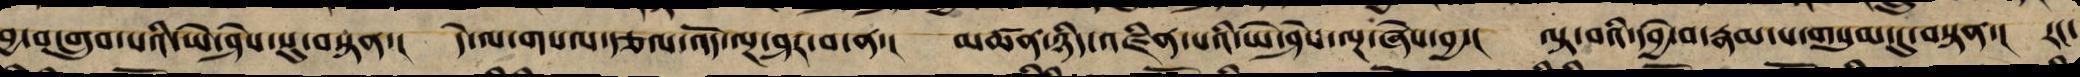བྱ་བ་གྲུབ་པའི་ཡེ་ཤེས་སུ་བསྟན་། དེ་ལ་གསལ་རྩལ་འོད་ལྔ་ཤར་བ་ན་། མཚན་ཉིད་འཛིན་པའི་ཡེ་ཤེས་ལྔ་ཞེས་བྱ་། ལྟ་བའི་དབྱེ་བ་རྣམ་པ་གསུམ་དུ་བསྟན་། རང་
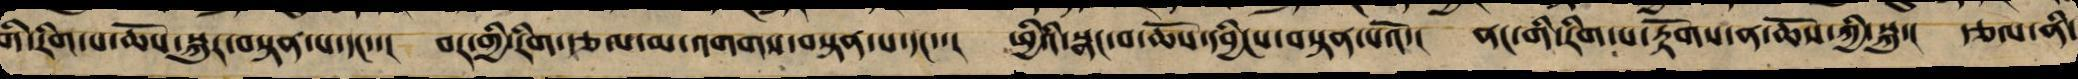གི་རིག་པ་ཆོས་སྐུར་བསྟན་པ་དང་་། བར་གྱི་རིག་རྩལ་མ་འགགས་བསྟན་པ་དང་་། ཕྱིའི་སྣང་བ་ཆོས་དབྱིངས་བསྟན་པའོ་། ནང་གི་རིག་པ་རྟོགས་ན་ཆོས་ཀྱི་སྐུ་། རྩལ་ནི་
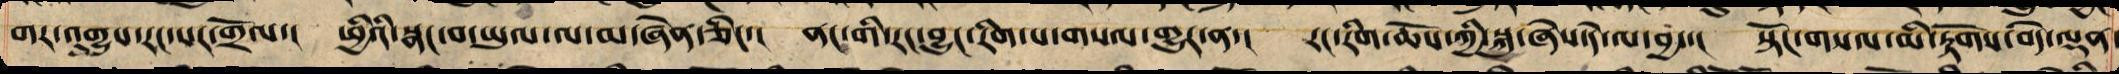གར་འགྱུས་རང་སར་གྲོལ་། ཕྱིའི་སྣང་བ་ཡུལ་ལ་མ་ཞེན་ཅིང་། ནང་གི་རང་བྱུང་རིག་པ་གསལ་གྱུར་ན་། རང་རིག་ཆོས་ཀྱི་སྐུ་ཞེས་དེ་ལ་བྱ་་། སྟོང་གསལ་མི་རྟོགས་བདེ་ལྡན་
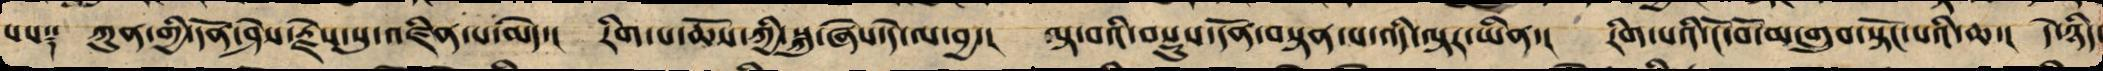པས༑ ཀུན་གྱི་དོན་ཤེས་རྗེས་སུ་འཛིན་པ་མེད་། རིག་པ་ཆོས་ཀྱི་སྐུ་ཞེས་དེ་ལ་བྱ་། ལྟ་བའི་བསྡུས་དོན་བསྟན་པ་འདི་ལྟར་ཡིན་། རིག་པའི་ངོ་བོ་མ་གྲུབ་སྟོང་པའི་ཆ་། དེ་ཉིད་
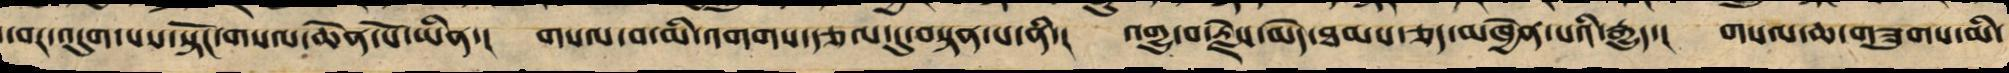་བར་འདུག་པས་སྟོང་གསལ་ཆེན་པོ་ཡིན་། གསལ་བ་མི་འགགས་རྩལ་དུ་བསྟན་པ་ནི་། འགྱུ་བ་རྗེས་མེད་ཐམས་ཅད་མཁྱེན་པའི་རྒྱུད་། གསལ་ཆ་གཟུགས་མི་
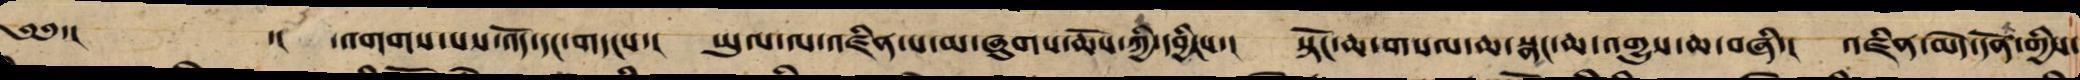༄༅་། ་། འགགས་པས་འོད་དང་གདངས་། ཡུལ་ལ་འཛིན་པ་མ་ཞུགས་ཆོས་ཀྱི་དབྱིངས་། སྟོང་ཆ་གསལ་ཆ་སྣང་ཆ་འགྱུས་ཆ་བཞི་། འཛིན་མེད་དོན་གྱིས་
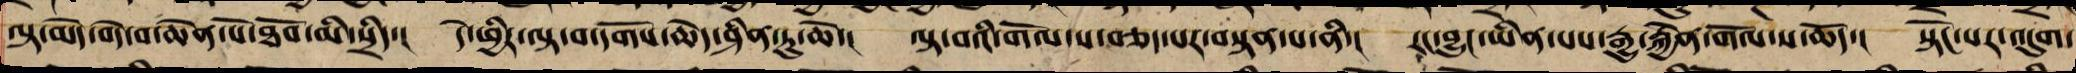ལྟ་མེད་བདེ་བ་ཆེན་པོ་ཐོབ་མི་སྲིད་། དེ་ཕྱིར་ལྟ་བ་དགོས་ཆེད་ཤིན་ཏུ་ཆེ་། ལྟ་བའི་གོལ་ས་བཅད་པར་བསྟན་པ་ནི་། རང་བྱུང་ཡིན་པས་རྒྱུ་རྐྱེན་གོལ་ས་ཆོད་། སྟོང་པར་འདུག་
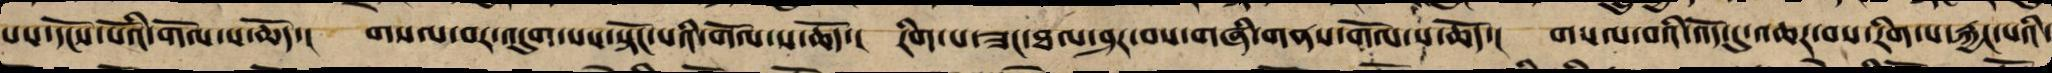པས་དངོས་པོའི་གོལ་ས་ཆོད་། གསལ་བར་འདུག་པས་སྟོང་པའི་གོལ་ས་ཆོད་། རིག་པ་ཟང་ཐལ་ཤར་བས་གཞི་གནས་གོལ་ས་ཆོད་། གསལ་བའི་འོད་དུ་འཆར་བས་རིག་པ་རྐྱང་པའི་
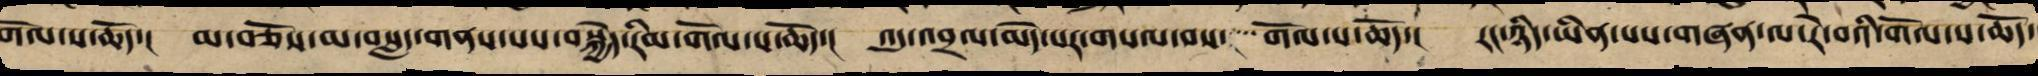གོལ་ས་ཆོད་། མ་བཅོས་མ་བསླད་གནས་པས་བསྐྱེད་རིམ་གོལ་ས་ཆོད་། འདུ་འབྲལ་མེད་པར་གསལ་བས་་་་གོལ་ས་ཆོད་། རང་ཉིད་ཡིན་པས་གཞན་ལ་རེ་བའི་གོལ་ས་ཆོད་
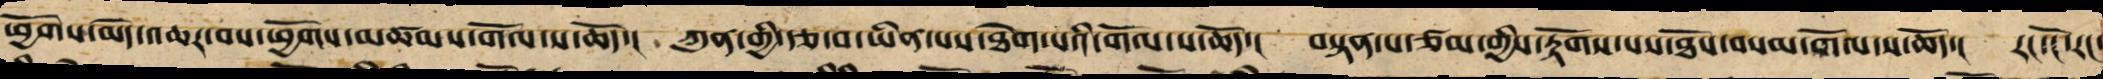ཕྱོགས་མེད་འཆར་བས་ཕྱོགས་མཚམས་གོལ་ས་ཆོད་། ཀུན་གྱི་རྩ་བ་ཡིན་པས་ཐེག་པའི་གོལ་ས་ཆོད་། བསྟན་པ་ཙམ་གྱིས་རྟོགས་པས་ཐོས་བསམ་གོལ་ས་ཆོད་། རང་ངོ་རང་
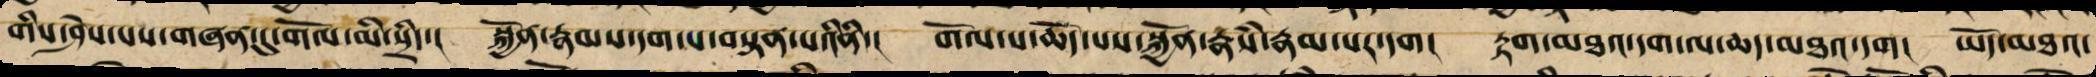གིས་ཤེས་པས་གཞན་དུ་གོལ་མི་སྲིད་། སྐྱོན་རྣམས་དག་པ་བསྟན་པའིནི་། གོལ་ས་ཆོད་པས་སྐྱོན་རྣཾས་རྣམ་པར་དག། རྟག་མཐའ་དག་ལ་ཆད་མཐའ་དག། ཡོད་མཐའ་
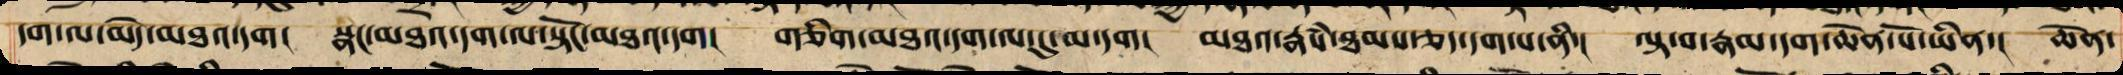དག་ལ་མེད་མཐའ་དག། སྣང་མཐའ་དག་ལ་སྟོང་མཐའ་དག། གཅིག་མཐའ་དག་ལ་དུ་མ་དག། མཐའ་རྣཾས་ཐམས་ཅད་དག་པ་ནི་། ལྟ་བ་རྣམ་དག་ཆེན་པོ་ཡིན་། ཆེན་
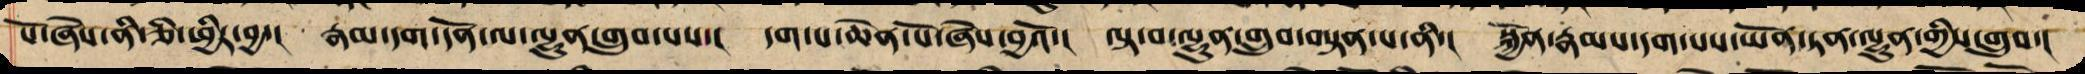པོ་ཞེས་ནི་ཅི་ཕྱིར་བྱ་། རྣམ་དག་དོན་ལ་ལྷུན་གྲུབ་པས་། དག་པ་ཆེན་པོ་ཞེས་བྱའོ་། ལྟ་བ་ལྷུན་གྲུབ་བསྟན་པ་ནི་། སྐྱོན་རྣམས་དག་པས་ཡོན་ཏན་ལྷུན་གྱིས་གྲུབ་།
